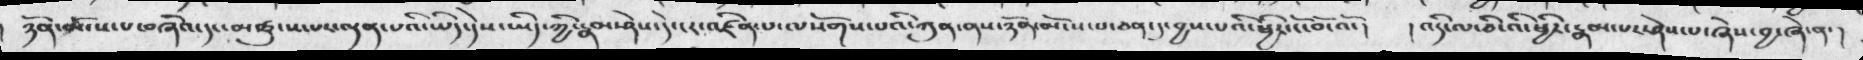། ཉོན་མོངས་པ་བཞིའ་དང་མཚུངས་པར་ལྡན་པའི་ཡིད་དེས་ཡིད་ཀྱི་རྣམ་ཤེས་དེ་ངར་འཛིན་པ་ལསོགས་པའི་ཀུན་ནས་ཉོན་མོངས་པ་ཅན་དུ་བྱས་པའི་ཕྱིར་ངོ་བོ་འོ་།  ། འདི་ལ་ཅི་འི་ཕྱིར་རྣམ་པར་ཤེས་པ་ཞེས་བྱ་ཞེ་ན་།
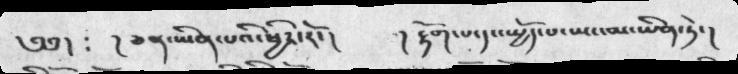༄༅། ཿ    །  ཅན་ཡིན་པའི་ཕྱིར་རོ་།   ། རྟོག་པ་དང་སྤྱོད་པ་ཡང་མ་ཡིན་ཏེ་།
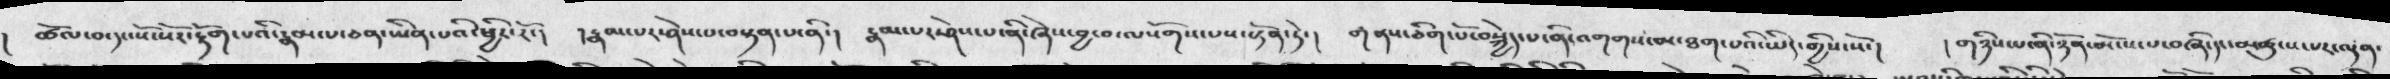། ཚོལ་བ་དང་སོ་སོར་རྟོག་པའི་རྣམ་པ་ཅན་ཡིན་པའི་ཕྱིར་རོ་།  །རྣམ་པར་ཤེས་པ་བསྟན་པ་ནི་།  རྣམ་པར་ཤེས་པ་ནི་ཞེས་བྱ་བ་ལསོགས་པས་སྟོན་ཏེ་།   གནས་ཅིག་པོ་བསྐྱེད་པ་ནི་འགགས་མ་ཐག་པའི་ཡིད་གྱིས་སོ་།    ། གཉིས་པ་ནི་ཉོན་མོངས་པ་བཞི་དང་མཚུངས་པར་ལྡན་
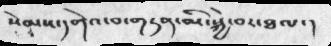སེམས་དགེའ་བ་གཏན་མི་སྐྱེ་བར་ཐལ་།
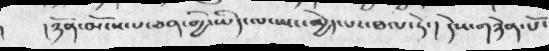། ཉོན་མོངས་པ་ཅན་གྱི་ཡིད་ལས་ཡང་མྱེད་པར་ཐལ་ཏེ་།  དེས་གཉེན་པོ་
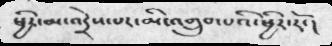ཕྱིར་མ་འདྲེས་པར་མི་འགྲུབ་པའི་ཕྱིར་རོ་།
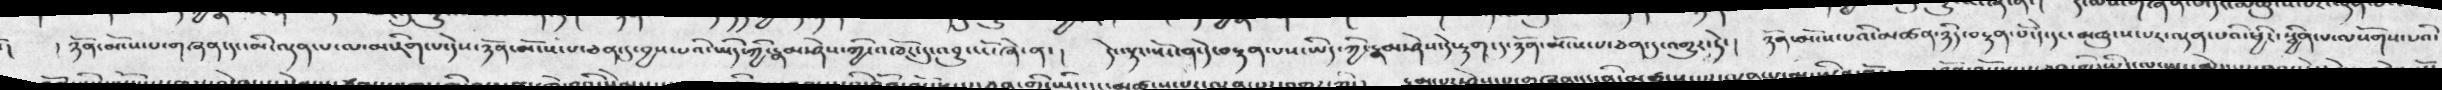། ཉོན་མོངས་པ་གཞན་དང་མི་ལྡན་པ་ལ་མ་རིག་པ་དེས་ཉོན་མོངས་པ་ཅན་དུ་བྱས་པའི་ཡིད་ཀྱི་རྣམ་ཤེས་ཀྱི་འཁོར་དུ་འབྱུང་ངོ་ཞེ་ན་།  དེ་ལྟར་སོང་ན་དེ་བརྟན་པས་ཡིད་ཀྱི་རྣམ་ཤེས་དེ་རྟག་དུ་ཉོན་མོངས་པ་ཅན་དུ་འགྱུར་ཏེ་ །  ཉོན་མོངས་པའི་མཚན་ཉིད་བརྟན་པ་དེ་དང་མཚུངས་པར་ལྡན་པའི་ཕྱིར་སྦྱིན་པ་ལསོགས་པའི་
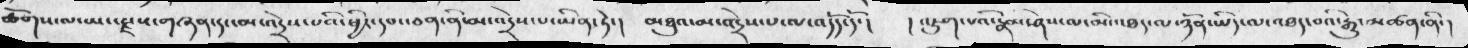ཚོགས་ལ་ཡང་རྫས་གཞན་དང་མ་འདྲེས་པའི་ཕྱིར་དབང་ཅན་ནི་མ་འདྲེས་པ་ཡིན་ཏེ་།   མཐུའ་མ་འདྲེས་པ་ལ་འདོད་དོ་།    ། འཇུག་པའི་རྣམ་ཤེས་ལ་མི་འཐད་ལ་ཉོན་ཡིད་ལ་འཐད་བའི་རྒྱུ་མཚན་ནི་།
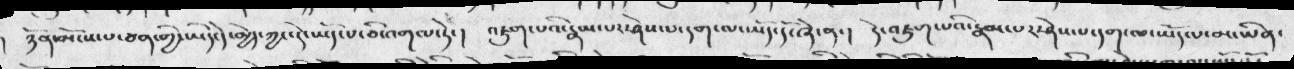ཉོན་མོངས་པ་ཅན་གྱི་ཡིད་དེ་མྱེད་ཀྱང་དེ་ཡོད་པ་ཅི་འགལ་ཏེ་།   འཇུག་པའི་རྣམ་པར་ཤེས་པ་དག་ལ་ཡོད་དོ་ཞེ་ན་།   དེ་འཇུག་པའི་རྣམ་པར་ཤེས་པ་དག་ལ་ཡོད་པ་མ་ཡིན་
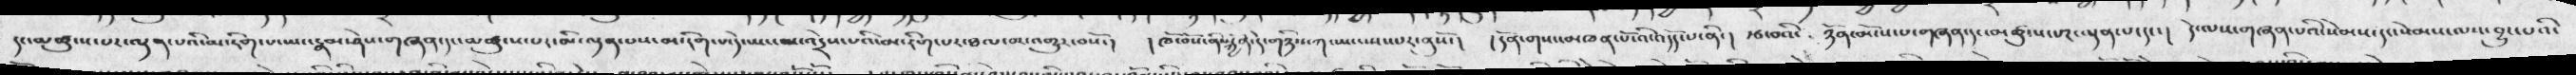དང་མཚུངས་པར་ལྡན་པའི་མ་རིག་པ་ཡང་རྣམ་ཤེས་གཞན་དང་མཚུངས་པར་མི་ལྡན་པས་མ་རིག་པ་དེ་ཡང་མ་འདྲེས་པའི་མ་རིག་པར་ཐལ་བར་འགྱུར་བསོ་།  ། ཁོ་བོས་ནིསརྐྱེན་དེ་གཉིས་ཀ་ཡང་སྤངས་པར་ནུསོ་།  ། དོན་གསང་མཁན་པོ་འི་འདོད་པ་ནི་།   རྩ་བའི་  ཉོན་མོངས་པ་གཞན་དང་མཚུངས་པར་ལྡན་པ་དང་།   དེ་ལས་གཞན་པའི་སེམས་དང་སེམས་ལས་བྱུང་པའི་
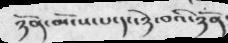ཉོན་མོངས་པ་དང་ཉེ་བའི་ཉོན་
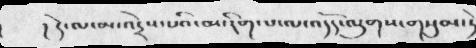། དེ་ལ་མ་འདྲེས་པའི་མ་རིག་པ་ལ་འདོད་ལུགས་གསུམ་ཏེ
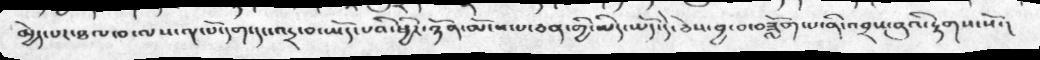མྱེད་པར་ཐལ་བ་ལས་ལྔ་པོ་དག་དང་འདྲ་བ་ཡོད་པའི་ཕྱིར་ཉོན་མོངས་པ་ཅན་གྱི་ཡིད་ཡོད་དེ་ཅེས་བྱ་བ་བཟློག་པ་ནི་འབྲས་བུའི་རྟགས་སོ་།
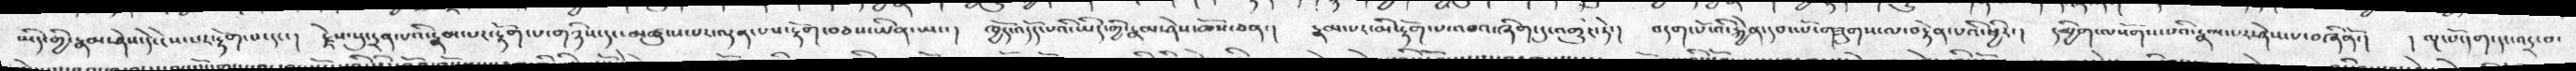ཡིད་གྱི་རྣམ་ཤེས་དེ་ངེས་པར་རྟོག་པ་དང་།   རྗེས་སུ་དྲན་པའི་རྣམ་པར་རྟོག་པ་གཉིས་དང་མཚུངས་པར་ལྡན་པས་རྟོག་བཅས་ཡིན་ཡང་།  ཁྱོད་འདོད་པའི་ཡིད་གྱི་རྣམ་ཤེས་ཆོས་ཅན་།   རྣམ་པར་མི་རྟོག་པ་འབའ་ཞིག་དུ་འགྱུར་ཏེ་།    བདག་པོ་འི་རྐྱེན་དབང་པོ་གཟུགས་ལ་བརྟེན་པའི་ཕྱིར་ །   དམྱིག་ལསོགས་པའི་རྣམ་པར་ཤེས་པ་བཞིནོ་།   ། ལྔ་པོ་དག་དང་འདྲ་བ་
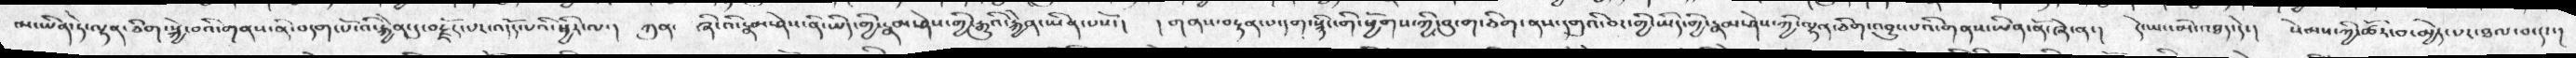མ་ཡིན་ཏེ་ལྷན་ཅིག་སྐྱེ་བའི་གནས་ནི་བདག་པོའི་རྐྱེན་དུ་བརྗོད་པར་འདོད་པའི་ཕྱིར་ལ་།  ཀུན་   ཞི་འི་རྣམ་ཤེས་ནི་ཡིད་གྱི་རྣམ་ཤེས་གྱི་རྒྱུའི་རྐྱེན་ཡིན་པའོ་།  གནས་བརྟན་པ་དག་སྙིང་གི་ཕྱོགས་ཀྱི་བུ་ག་ཅིག་ནས་དགུའི་བར་གྱི་ཡིད་གྱི་རྣམ་ཤེས་ཀྱི་ལྷན་ཅིག་འབྱུང་པའི་གནས་ཡིན་ནོ་ཞེ་ན་།   དེ་ཡང་མི་འཐད་དེ་།   སེམས་ཀྱི་ཚོར་བ་མྱེད་པར་ཐལ་བ་དང་།
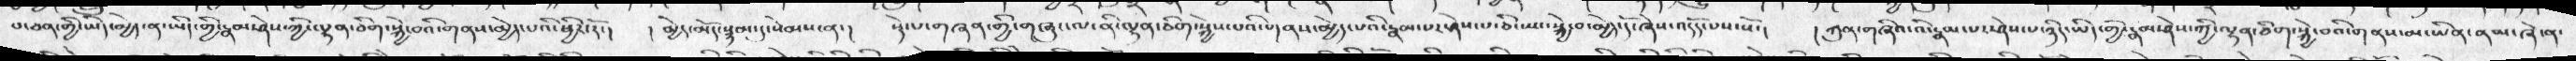བ་ཅན་གྱི་ཡིད་མྱེད་ན་ཡིད་གྱི་རྣམ་ཤེས་ཀྱི་ལྷན་ཅིག་སྐྱེ་བའི་གནས་མྱེད་པའི་ཕྱིར་རོ་།  ། མྱེད་མོད་སྙམ་དུ་སེམས་ན་།  སྡེ་བ་གཞན་གྱི་གཞུང་ལ་ནི་ལྷན་ཅིག་སྐྱེས་པའི་བདགས་མྱེད་པའི་རྣམ་པར་ཤེས་པ་ཅི་ཡང་སྐྱེ་བ་མྱེད་དོ་ཞེས་འདོད་པས་སོ་།    ། ཀུན་གཞིའ་འི་རྣམ་པར་ཤེས་པ་ཤེས་པ་ཉིད་ཡིད་གྱི་རྣམ་ཤེས་ཀྱི་ལྷན་ཅིག་སྐྱེ་བའི་གནས་མ་ཡིན་ནམ་ཞེ་ན་
